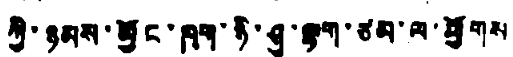ཀྱི་ཉམས་མྱོང་ཁག་ཉི་ཤུ་ལྷག་ཙམ་ལ་ཕྱོགས
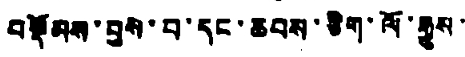བསྡོམས་བྱས་པ་དང་ཆབས་ཅིག་ལོ་རྒྱུས་་་་
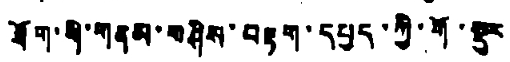ཐོག་གི་གནམ་གཤིས་བརྟག་དཔྱད་ཀྱི་གོ་སྡུར
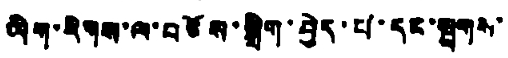ཡིག་རིགས་ལ་བཅོས་སྒྲིག་བྱེད་པ་དང་སྦྲགས་
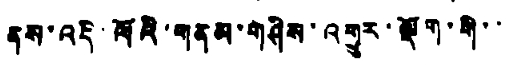ནས་འདི་ལོའི་གནམ་གཤིས་འགྱུར་ལྡོག་གི་་
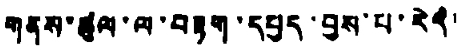གནས་ཚུལ་ལ་བརྟག་དཔྱད་བྱས་པ་རེད།
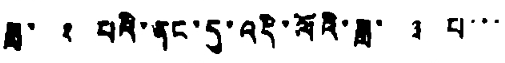ཟླ་ ༢ པའི་ནང་དུ་འདི་ལོའི་ཟླ་ ༣ པ་་་
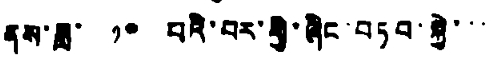ནས་ཟླ་ ༡༠ པའི་བར་གྱི་ཞིང་བཏབ་སྐྱེ་་་
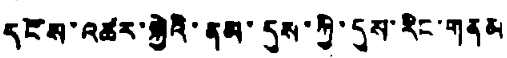དངོས་འཚར་སྐྱེའི་ནམ་དུས་ཀྱི་དུས་རིང་གནམ
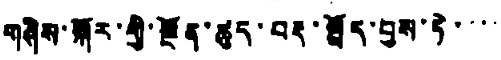གཞིས་སྐོར་གྱི་སྔོན་ཚུད་བརྡ་སྤྲོད་བྱས་ཏེ་་་་
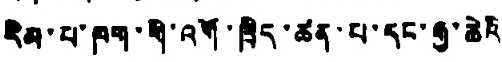རིམ་པ་ཁག་གི་འགོ་ཁྲིད་ཚན་པ་དང་རྒྱ་ཆེའི
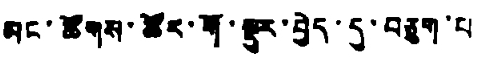མང་ཚོགས་ཚོར་ར་ལྡུར་བྱེད་དུ་བཅུག་པ་་
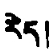རེད།
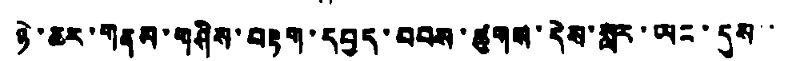ཉེ་ཆར་གནམ་གཤིས་བརྟག་དཔྱད་བབས་ཚུགས་དེས་སླར་ཡང་དུས་་
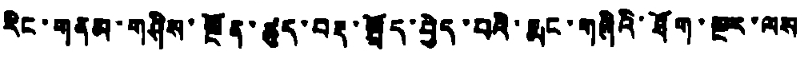རིང་གནམ་གཤིས་སྔོན་ཚུད་བརྡ་སྤྲོད་བྱེད་པའི་རྨང་གཞིའི་ཐོག་སྔར་ལས
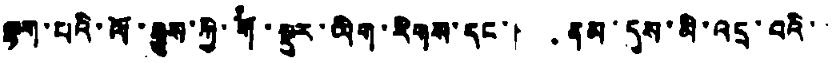ལྷག་པའི་ལོ་རྒྱུས་ཀྱི་གོ་སྡུར་ཡིག་རིགས་དང་། ནམ་དུས་མི་འདྲ་བའི་་
